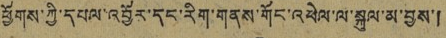ཕྱོགས་ཀྱི་དཔལ་འབྱོར་དང་རིག་གནས་གོང་འཕེལ་ལ་སྐུལ་མ་བྱས་།
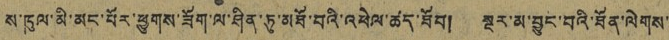ས་ཁུལ་མི་མང་པོར་ཕྱུགས་ཟོག་ལ་ཤིན་ཏུ་མཐོ་བའི་འཕེལ་ཚད་ཐོབ། སྔར་མ་བྱུང་བའི་ཐོན་ལེགས་
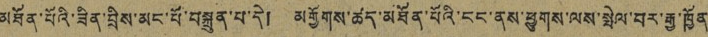མཐོན་པོའི་ཟིན་བྲིས་མང་པོ་བསྐྲུན་པ་དེ། མགྱོགས་ཚད་མཐོན་པོའི་ངང་ནས་ཕྱུགས་ལས་སྤེལ་བར་རྒྱ་ཁྱོན
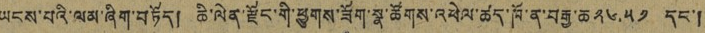ཡངས་པའི་ལམ་ཞིག་བཏོད། ཆི་ལེན་རྫོང་གི་ཕྱུགས་ཟོག་སྣ་ཚོགས་འཕེལ་ཚད་ཁོ་ན་བརྒྱ་ཆ ༢༦.༥༡ དང་།
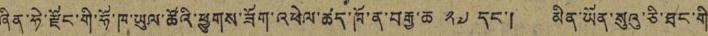ཞིན་ཧེ་རྫོང་གི་ཧོ་ཁ་ཡུལ་ཚོའི་ཕྱུགས་ཟོག་འཕེལ་ཚད་ཁོ་ན་བརྒྱ་ཆ ༢༧ དང་། མིན་ཡོན་སུའུ་ཅི་ཐང་གི
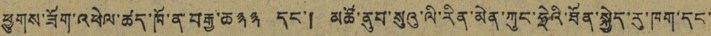ཕྱུགས་ཟོག་འཕེལ་ཚད་ཁོ་ན་བརྒྱ་ཆ ༣༣ དང་། མཚོ་ནུབ་སུའུ་ལི་རིན་མེན་ཀུང་ཧྲེའི་ཐོན་སྐྱེད་རུ་ཁག་དང་
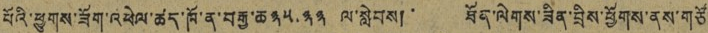པོའི་ཕྱུགས་ཟོག་འཕེལ་ཚད་ཁོ་ན་བརྒྱ་ཆ ༣༥.༣༣ ལ་སླེབས། ཐོན་ལེགས་ཟིན་བྲིས་ཕྱོགས་ནས་གཙོ་
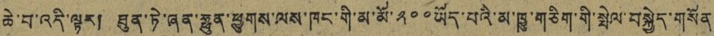ཆེ་བ་འདི་ལྟར། ཐུན་ཏེ་ཞན་ཧྥུན་ཕྱུགས་ལས་ཁང་གི་མ་མོ་ ༢༠༠ ཡོད་པའི་མ་ཁྱུ་གཅིག་གི་སྤེལ་བསྐྱེད་གསོན
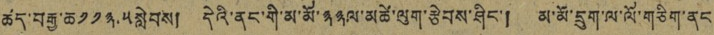ཚད་བརྒྱ་ཆ ༡༡༣.༥ སླེབས། དེའི་ནང་གི་མ་མོ་༣༣ལ་མཚེ་ལུག་རྩེབས་ཤིང་། མ་མོ་དྲུག་ལ་ལོ་གཅིག་ནང
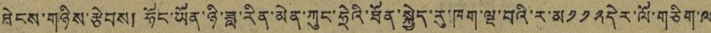ཐེངས་གཉིས་རྩེབས། ཧོང་ཡོན་ཉི་ཟླ་རིན་མེན་ཀུང་ཧྲེའི་ཐོན་སྐྱེད་རུ་ཁག་ལྔ་བའི་ར་མ༡༡༢དེར་ལོ་གཅིག་ལ
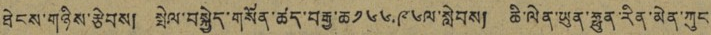ཐེངས་གཉིས་རྩེབས། སྤེལ་བསྐྱེད་གསོན་ཚད་བརྒྱ་ཆ༡༦༦.༩༦ལ་སླེབས། ཆི་ལེན་ཡུན་ཧྥུན་རིན་མེན་ཀུང་
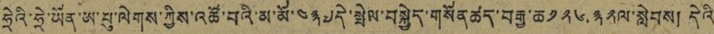ཧྲེའི་ཧྲེ་ཡོན་ཡ་པུ་ལེགས་ཀྱིས་འཚོ་བའི་མ་མོ་༤༣༧དེ་སྤེལ་བསྐྱེད་གསོན་ཚད་བརྒྱ་ཆ༡༢༦.༣༢ལ་སླེབས། དེའི
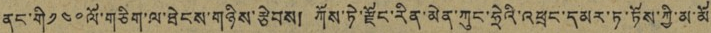ནང་གི་༡༤༠ལོ་གཅིག་ལ་ཐེངས་གཉིས་རྩེབས། ཀོས་ཏེ་རྫོང་རིན་མེན་ཀུང་ཧྲེའི་འཕྲང་དམར་ཏ་ཏོས་ཀྱི་མ་མོ་
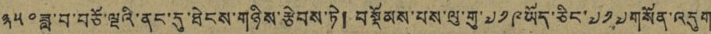༣༥༠ཟླ་བ་བཅོ་ལྔའི་ནང་དུ་ཐེངས་གཉིས་རྩེབས་ཏེ། བསྡོམས་པས་ལུ་གུ་༧༡༩ཡོད་ཅིང་༧༡༧གསོན་འདུག
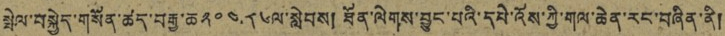སྤེལ་བསྐྱེད་གསོན་ཚད་བརྒྱ་ཆ༢༠༠.༨༦ལ་སླེབས། ཐོན་ལེགས་བྱུང་པའི་དཔེ་འོས་ཀྱི་གལ་ཆེན་རང་བཞིན་ནི།
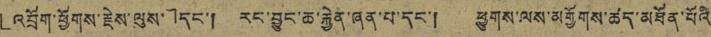「འབྲོག་ཕྱོགས་རྗེས་ལུས་」དང་། རང་བྱུང་ཆ་རྐྱེན་ཞན་པ་དང་། ཕྱུགས་ལས་མགྱོགས་ཚད་མཐོན་པོའི
